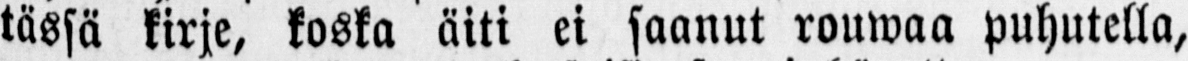tässä kirje, koska äiti ei saanut rouwaa puhutella,
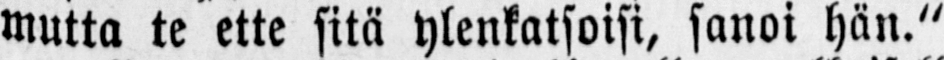mutta te ette sitä ylenkatsoisi, sanoi hän."
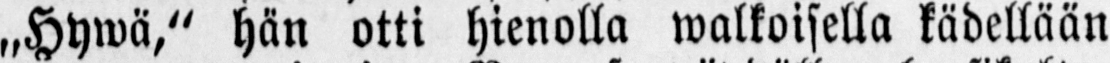„Hywä," hän otti hienolla walkoisella kädellään
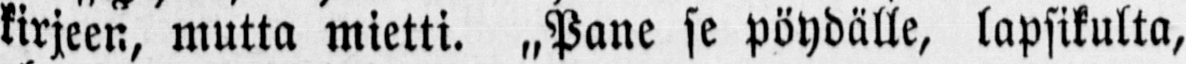kirjeen, mutta mietti. „Pane se pöydälle, lapsikulta,
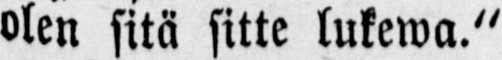olen sitä sitte lukewa."
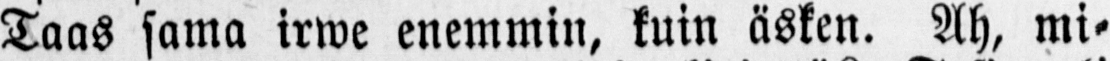Taas sama irwe enemmin, kuin äsken. Ah, mi-
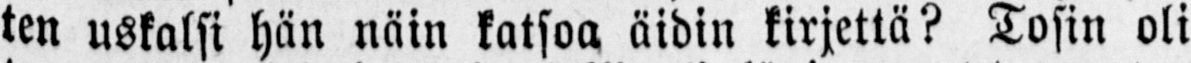ten uskalsi hän näin katsoa äidin kirjettä? Tosin oli
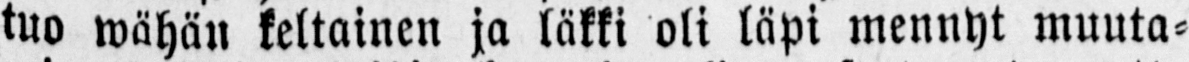tuo wähän keltainen ja läkki oli läpi mennyt muuta-
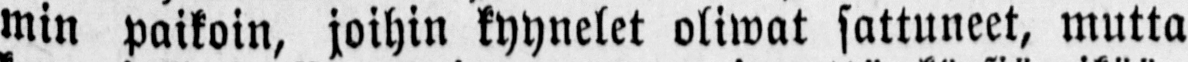min paikoin, joihin kyynelet oliwat sattuneet, mutta
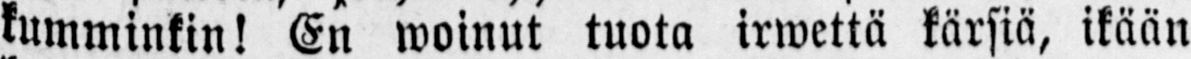kumminkin! En woinut tuota irwettä kärsiä, ikään
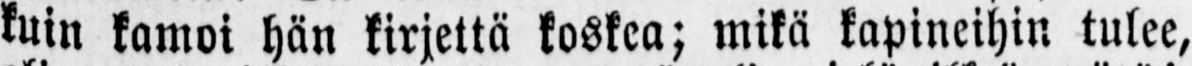kuin kamoi hän kirjettä koskea; mikä kapineihin tulee,
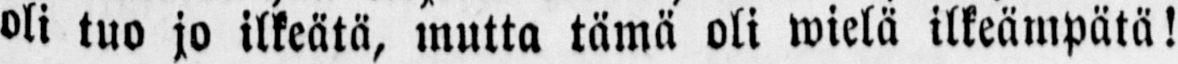oli tuo jo ilkeätä, mutta tämä oli wielä ilkeämpätä!
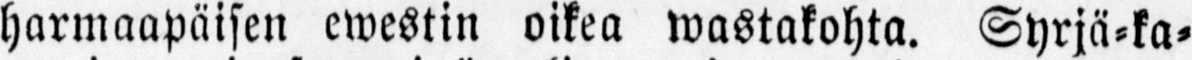harmaapäisen ewestin oikea wastakohta. Syrjä-ka-
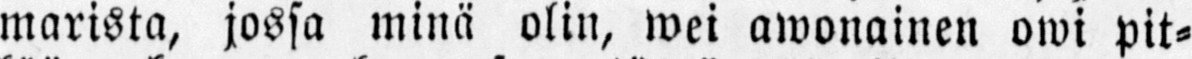marista, jossa minä olin, wei awonainen owi pit-
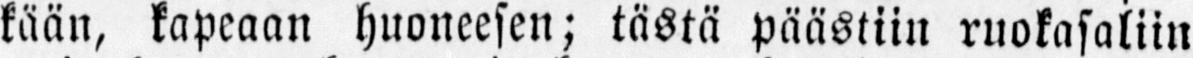kään, kapeaan huoneesen; tästä päästiin ruokasaliin
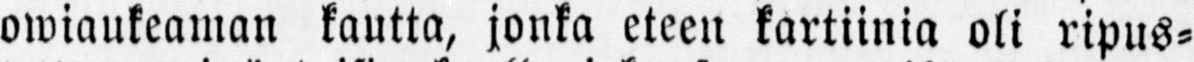owiaukeaman kautta, jonka eteen kartiinia oli ripus-
